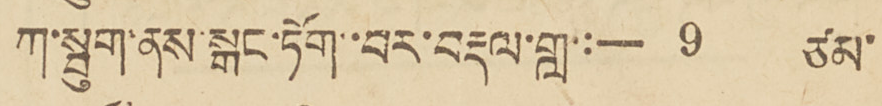ཀ་སྦུག་ནས་སྒང་ཏོག་བར་བརྡལ་གླ་:— 9 ཙམ་
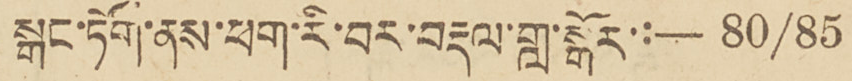སྒང་ཏོག་ནས་ཕག་རི་བར་བརྡལ་གླ་སྒོར་:— 80/85
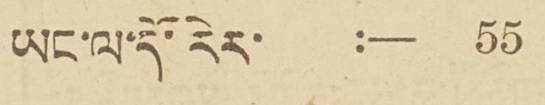ཡང་ལ་དོ་རིར་ :— 55
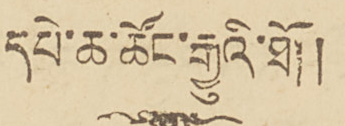དཔེ་ཆ་ཚོང་རྒྱུའི་ཐོ།།
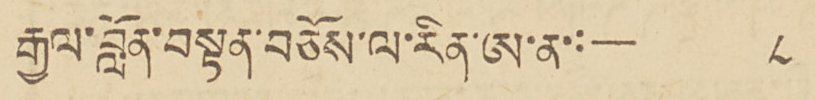རྒྱལ་བློན་བསྟན་བཅོས་ལ་རིན་ཨ་ན་:—༨
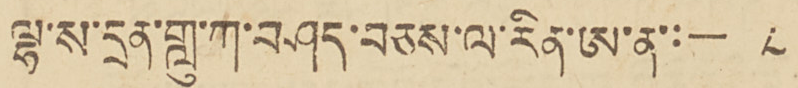ལྷ་ས་དྲན་གླུ་ཀ་བཤད་བཅས་ལ་རིན་ཨ་ན་:— ༨
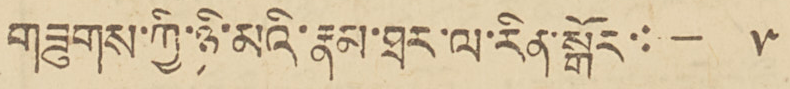གཟུགས་ཀྱི་ཉི་མའི་རྣམ་ཐར་ལ་རིན་སྒོར་:— ༥
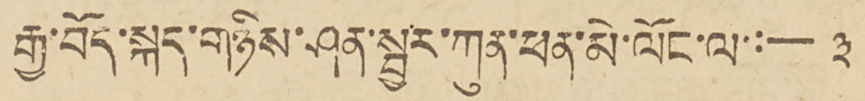རྒྱ་བོད་སྐད་གཉིས་ཤན་སྦྱར་ཀུན་ཕན་མེ་ལོང་ལ་:— ༣
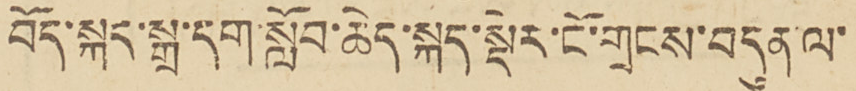བོད་སྐད་སྒྲ་དག་སློབ་ཆེད་སྐད་སྡེར་ངོ་གྲངས་བདུད་ལ་
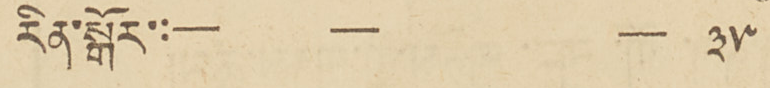རིན་སྒོར་:— — — ༣༨
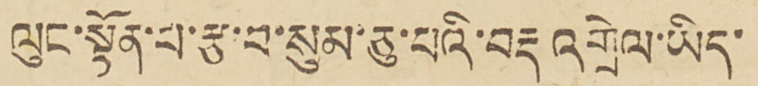ལུང་སྟོན་པ་རྩ་བ་སུམ་ཅུ་པའི་བརྡ འགྲེལ་ཡིད་
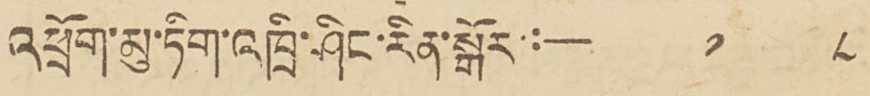འཕྲོག་མུ་ཏིག་འཁྲི་ཤིང་རིན་སྒོར་:— ༡ ༨
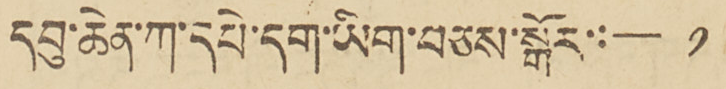དབུ་ཆེན་ཀ་དཔེ་གཉིས་པ་རིན་སྒོར་:— ༡ ༡༢
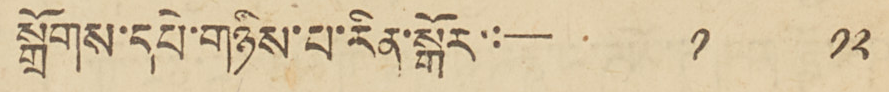སྒྲོགས་དཔེ་གཉིས་པ་རིན་སྒོར་:— ༡ ༡༢
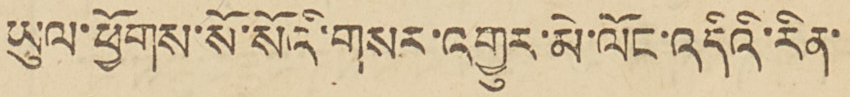ཡུལ་ཕྱོགས་སོ་སོའི་གསར་འགྱུར་མེ་ལོང་འདིའི་རིན་
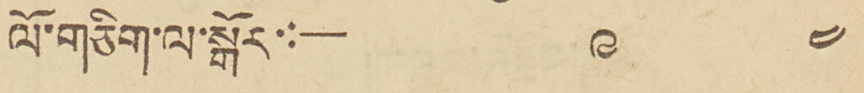ལོ་གཅིག་ལ་སྒོར་:— ༩ ༤
